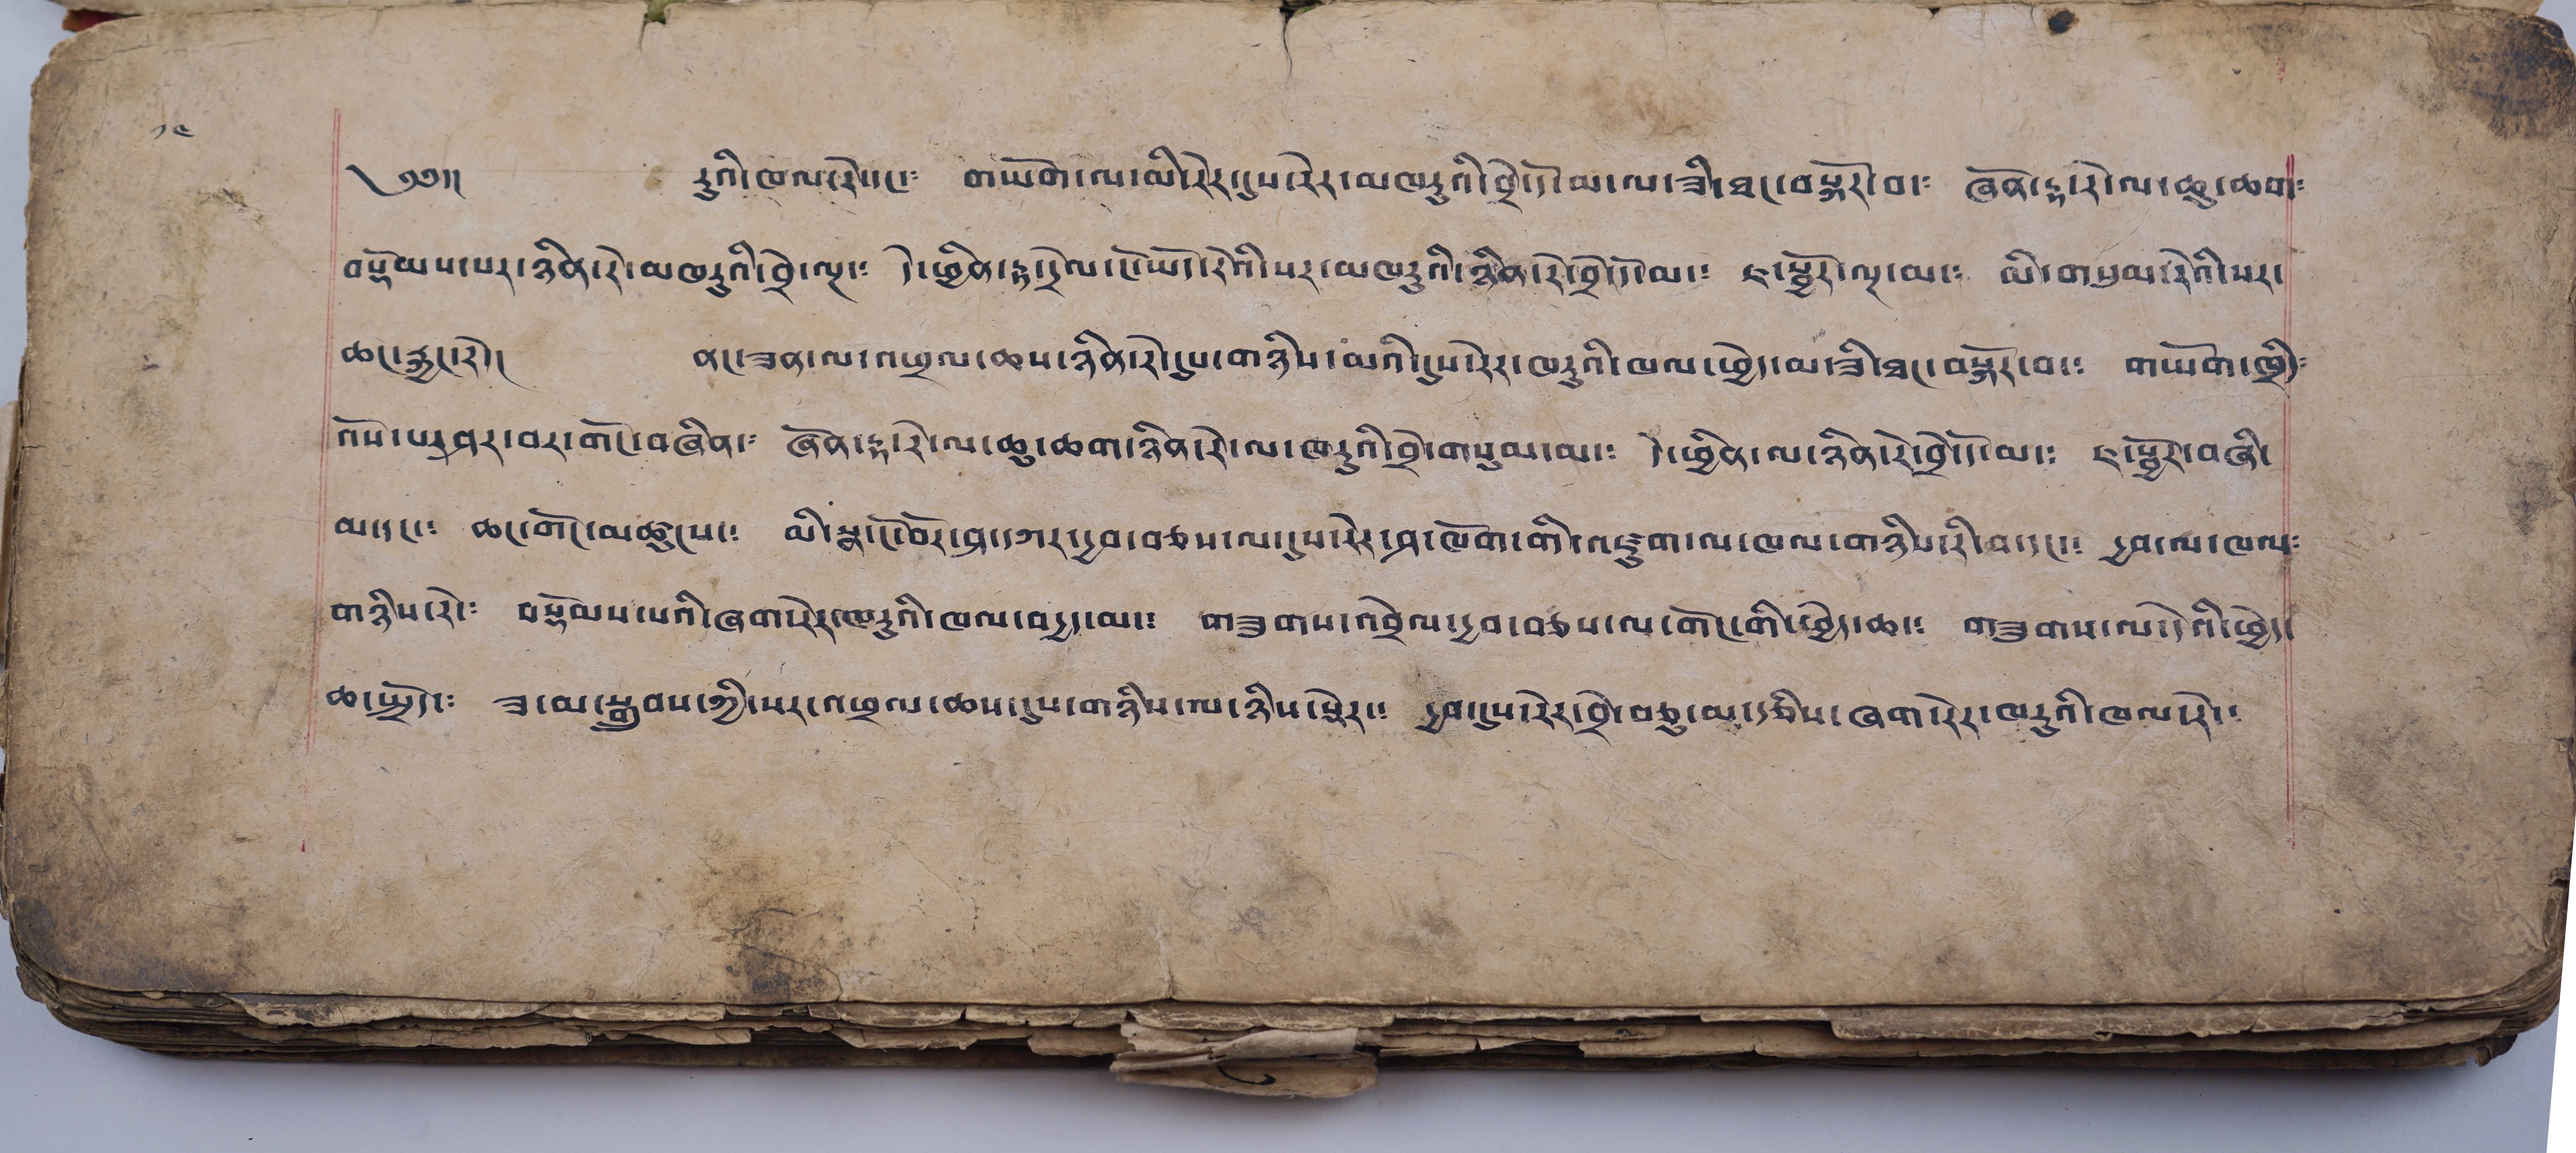༡༤
༄༅།། རུའི་ཁལ་རེ་དང་༴ གཡོག་ལ་མི་རེར་དུས་རེར་མཁརུའི་བྲེ་དོ་མ་ལ་ཟི་ཐང་བསྐོར་བ་༴ ཞོན་རྟ་རེ་ལ་ཆུ་ཆག༴
བསྡོམས་པར་ཉིན་རེ་མཁརུའི་བྲེ་ལྔ་༴ དེ་ཕྱིན་རྟ་དྲེལ་ངོ་ཡོད་རེའི་པར་མཁརུའི་ཉིན་རེ་བྲེ་དོ་མ་༴ ཇ་སྦྱོར་ལྔ་མང་༴ མི་གསུམ་རེའི་སར་
ཆང་རྐྱང་རེ་། ནང་ཟན་ལ་འཕྲལ་ཆས་ཉིན་རེ་དུས་གཉིས་མའི་དུས་རེར་མཁརུའི་ཁལ་ཕྱེད་མ་ཟི་ཐང་བསྐོར་བ་༴ གཡོག་ཁྲིད༴
འོས་པར་ཤར་བར་གོང་བཞིན་༴ ཞོན་རྟ་རེ་ལ་ཆུ་ཆག་ཉིན་རེ་ལ་ཁརུའི་བྲེ་གསུམ་མ་༴ དེ་ཕྱིན་ལ་ཉིན་རེ་བྲེ་དོ་མ་༴ ཇ་སྦྱོར་བཞི་
མ་དང་༴ ཆང་གོང་མཚུངས་༴ མི་སྣ་ངོ་བོར་ཤ་དཀར་དྱབ་བཅས་ལ་དུས་རེར་ཤ་ཁོག་གི་འཛུག་ལ་ཁལ་གཉིས་རི་བ་དང་༴ དྱབ་ལ་ཁལ༴
གཉིས་རེ་༴ བསྡོམས་པའི་ཞག་རེར་ཁརུའི་ཁལ་བདྱད་མ་༴ གཟུགས་འབྲེལ་དྱབ་བཅས་ལ་གོང་གི་ཕྱེད་ཆད་༴ གཟུགས་ལ་དེའི་ཕྱེད་
ཆ་སྤྲོད་༴ ཟ་མ་སྒྲུབས་ཀྱི་སར་འཕྲལ་ཆས་དུས་གཉིས་ལ་ཉིས་སྟེར་༴ དྱབ་དུས་རེར་བྲེ་བཅུ་མ་རྩིས་ཞག་སེར་ཁརུའི་ཁལ་རེ་༴
